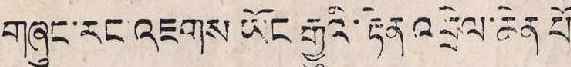གཞུང་རང་འཇགས ཡོང རྒྱུའི་རྟེན་འབྲེལ་ཆེན་པོ་
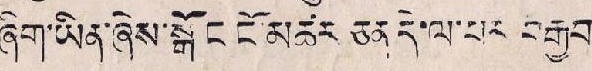ཞིག་ཡིན་ཞེས་སྒོ ང་ངོ་མཚར ཅན་དེ་ལ་པར བརྒྱབ་
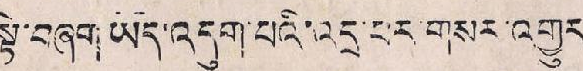སྟེ་བཞག ཡོད་འདུག་པའི་འདྲ་པར་གསར་འགྱུར་
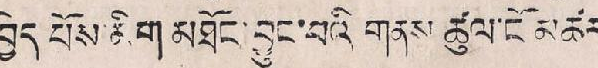བྱེད་པོས་མིག་མཐོང་བྱུང་བའི གནས ཚུལ་ངོ་མཚར་
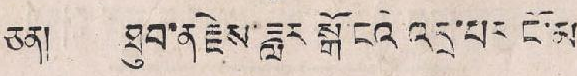ཅན། ཐུབ་ན་རྗེས་ཟླར སྒོ་ངའི་འདྲ་པར་ངོ་མ་
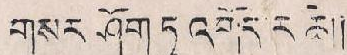གསར་ཤོག ཏུ འགོད་ར ཆེ།།
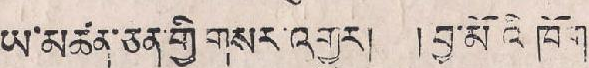ཡ་མཚན་ཅན་གྱི་གསར་འགྱུར། །བྱ་མོའི ཁོག་
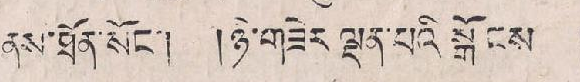ནས་ཐོན་སོང་། །ཉེ་གཟེར་ལྡན་པའི་སྒོངས །
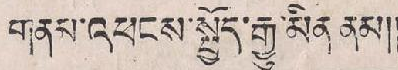གནས་འཕངས་སྤྱོད་རྒྱུ་མིན་ནམ།།
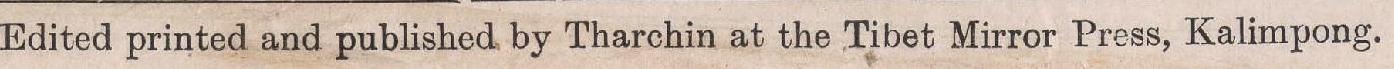Edited printed and published by Tharchin at the Tibet Mirror Press, Kalimpong.
